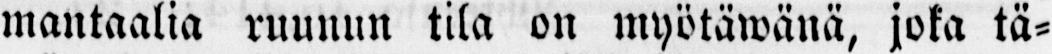mantaalia ruunun tila on myötäwänä, joka tä-
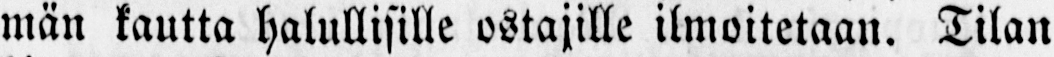män kautta halullisille ostajille ilmoitetaan. Tilan
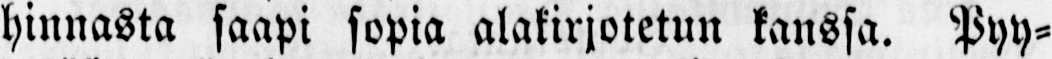hinnasta saapi sopia alakirjotetun kanssa. Pyy-
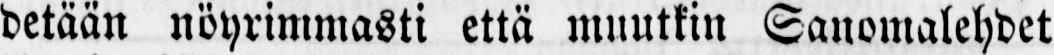detään nöyrimmasti että muutkin Sanomalehdet
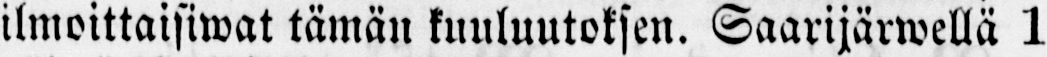ilmoittaisiwat tämän kuuluutoksen. Saarijärwellä 1
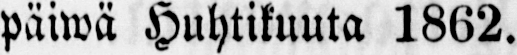päiwä Huhtikuuta 1862.
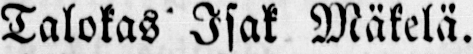Talokas Isak Mäkelä.
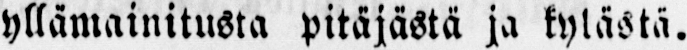yllämainitusta pitäjästä ja kylästä.
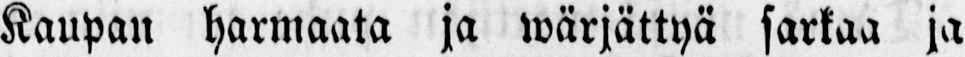Kaupan harmaata ja wärjättyä sarkaa ja
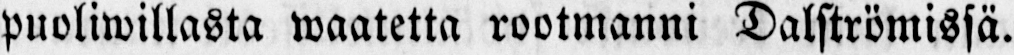puoliwillasta waatetta rootmanni Dalströmissä.
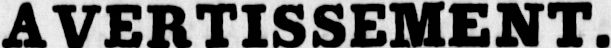AVERTISSEMENT.
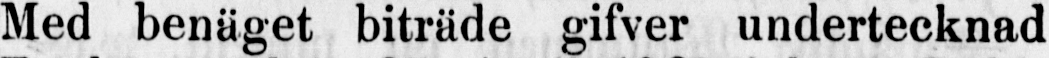Med benäget biträde gifver undertecknad
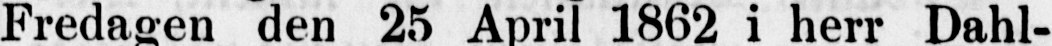Fredagen den 25 April 1862 i herr Dahl-
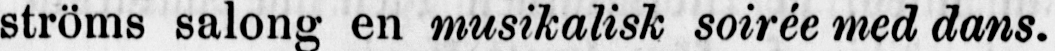ströms salong en musikalisk soirée med dans.
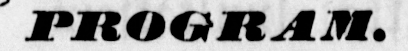PROGRAM.
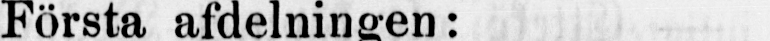Första afdelningen:
